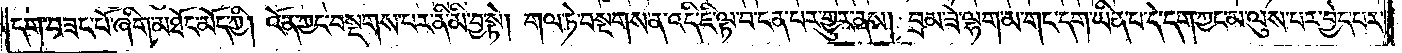དག་བཟང་པོ་ཞིག་མཐོང་མོད་ཀྱི། འོན་ཀྱང་བསྔགས་པར་ནི་མི་བྱ་སྟེ། གལ་ཏེ་བསྔགས་ན་འདི་ཇི་ལྟ་བ་ངན་པར་གྱུར་ནས། བྲམ་ཟེ་ལྷག་མ་གང་དག་ཡིན་པ་དེ་དག་ཀྱང་མ་ལུས་པར་བྱེད་པར་
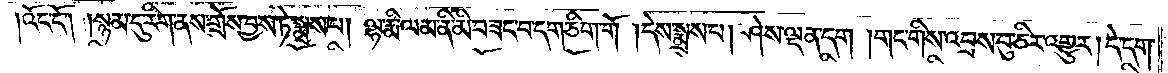།འོང་ངོ༌། །སྙམ་དུ་རིག་ནས་གྲོས་བྱས་ཏེ་སྨྲས་པ། ལྷ་རྨི་ལམ་ནི་མི་བཟང་བདག་ཅིག་གོ །དེས་སྨྲས་པ། ཤེས་ལྡན་དག །གང་གིས་འབྲས་བུ་ཅིར་འགྱུར་།དེ་དག་
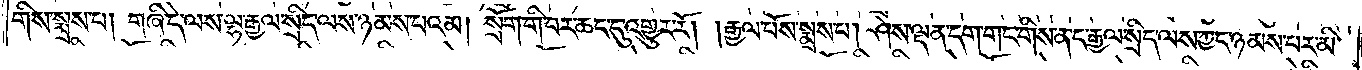གིས་སྨྲས་པ། གཞི་དེ་ལས་ལྷ་རྒྱལ་སྲིད་ལས་ཉམས་པའམ། སྲོག་གི་བར་ཆད་དུ་འགྱུར་རོ། །རྒྱལ་པོས་སྨྲས་པ། ཤེས་ལྡན་དག་གང་གིས་ན་ང་རྒྱལ་སྲིད་ལས་ཀྱང་ཉམས་པར་མི་
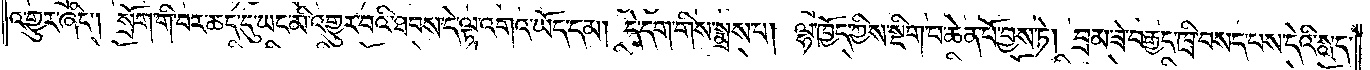འགྱུར་ཞིང༌། སྲོག་གི་བར་ཆད་དུ་ཡང་མི་འགྱུར་བའི་ཐབས་དེ་ལྟ་འགའ་ཡོད་དམ། དེ་དག་གིས་སྨྲས་པ། ལྷ་ཁྱོད་ཀྱིས་སྡིག་པ་ཆེན་པོ་བྱས་ཏེ། བྲམ་ཟེ་བརྒྱད་ཁྲི་བསད་པས་དེའི་སླད་
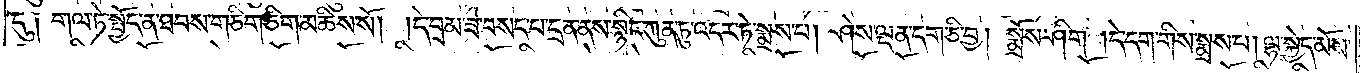དུ༑ གལ་ཏེ་སྤྱོད་ན་ཐབས་གཅིག་ཅིག་མཆིས་སོ། །དེ་བྲམ་ཟེ་བསད་པ་དྲན་ནས་སྙིང་ཀུན་ཏུ་འདར་ཏེ་སྨྲས་པ། ཤེས་ལྡན་དག་ཅི་བྱ། སྨྲོས་ཤིག །དེ་དག་གིས་སྨྲས་པ། ལྷ་སྐྱེད་མོས་
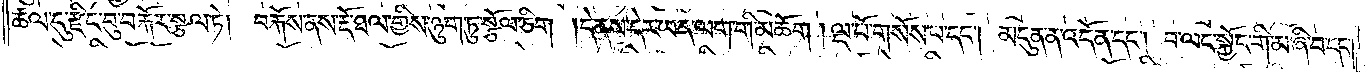ཚལ་དུ་རྫིང་བུ་བརྐོར་སྩལ་ཏེ། བརྐོས་ནས་རྡོ་ཐལ་གྱིས་ཉུག་ཏུ་སྩོལ་ཅིག །དེ་ནས་དེར་ཡན་ལག་གི་མཆོག །ལྔ་པོ་གསོས་པ་དང༌། མདུན་ན་འདོན་དང༌། བ་ལང་སྐྱོང་གི་མ་ཞི་བ་དང༌།
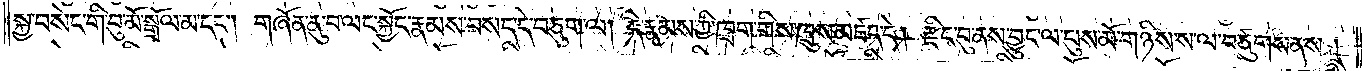སྐྱ་བསེང་གི་བུ་མོ་སྒྲོལ་མ་དང༌། གཞོན་ནུ་བ་ལང་སྐྱོང་རྣམས་བསད་དེ་བཅུག་ལ། དེ་རྣམས་ཀྱི་ཁྲག་གིས་ཁྲུས་མཛད་དེ། རྫིང་བུ་ནས་བྱུང་ལ་པུས་མོ་གཉིས་ས་ལ་བཙུགས་ནས།
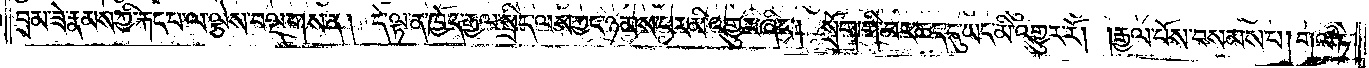བྲམ་ཟེ་རྣམས་ཀྱི་རྐང་པ་ལ་ལྕེས་བལྡགས་ན། དེ་ལྟ་ན་ཁྱོད་རྒྱལ་སྲིད་ལས་ཀྱང་ཉམས་པར་མི་འགྱུར་ཞིང༌། སྲོག་གི་བར་ཆད་དུ་ཡང་མི་འགྱུར་རོ། །རྒྱལ་པོས་བསམས་པ། གལ་ཏེ་
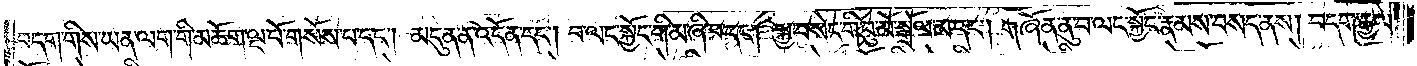བདག་གིས་ཡན་ལག་གི་མཆོག་ལྔ་པོ་གསོས་པ་དང༌། མདུན་ན་འདོན་དང༌། བ་ལང་སྐྱོང་གི་མ་ཞི་བ་དང༌། སྐྱ་བསེང་གི་བུ་མོ་སྒྲོལ་མ་དང༌། གཞོན་ནུ་བ་ལང་སྐྱོང་རྣམས་བསད་ནས། བདག་རྒྱལ་
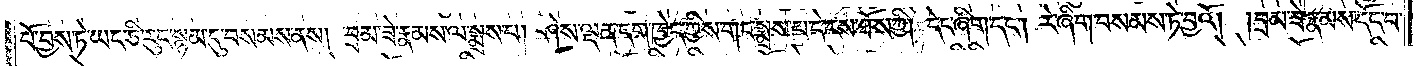པོ་བྱས་ཏེ་ཡང་ཅི་རུང་སྙམ་དུ་བསམས་ནས། བྲམ་ཟེ་རྣམས་ལ་སྨྲས་པ། ཤེས་ལྡན་དག་ཁྱེད་ཀྱིས་གང་སྨྲས་པ་དེ་ངས་ཐོས་ཀྱི། དེང་ཞིག་དང༌། རེ་ཞིག་བསམས་ཏེ་བྱའོ། །བྲམ་ཟེ་རྣམས་དོང་བ་
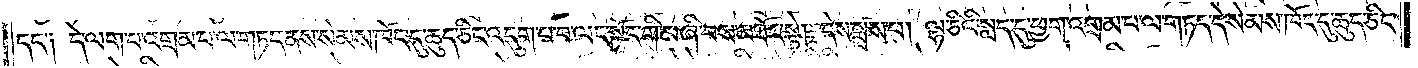དང་༑ དེ་ལག་པ་འགྲམ་པ་ལ་གཏད་ནས་སེམས་ཁོང་དུ་ཆུད་ཅིང་འདུག་པ་བ་ལང་སྐྱོང་གི་མ་ཞི་བས་མཐོང་སྟེ། དེས་སྨྲས་པ། ལྷ་ཅིའི་སླད་དུ་ཕྱག་འགྲམ་པ་ལ་གཏད་དེ་སེམས་ཁོང་དུ་ཆུད་ཅིང་
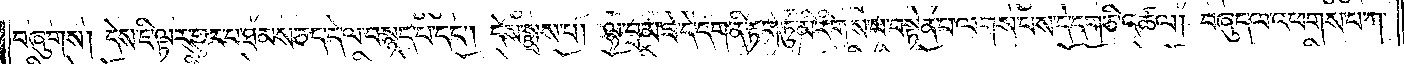བཞུགས། དེས་ཇི་ལྟར་གྱུར་པ་ཐམས་ཅད་དེ་ལ་བསྙད་པ་དང༌། དེས་སྨྲས་པ། ལྷ་བྲམ་ཟེ་དེ་དག་ནི་རྟག་ཏུ་མི་རིགས་པ་བསྟེན་པ་ལགས་པས་དེ་དག་ཅི་འཚལ། བཞུད་ལ་འཕགས་པ་ཀ་
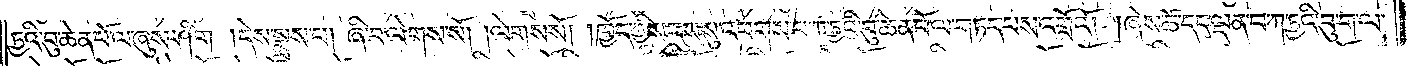ཏྱའི་བུ་ཆེན་པོ་ལ་ཞུས་ཤིག །དེས་སྨྲས་པ། ཞི་བ་ལེགས་སོ། །ལེགས་སོ། །ཁྱོད་ཀྱིས་དུས་སུ་འཕགས་པ་ཀ་ཏྱའི་བུ་ཆེན་པོ་ལ་གཏད་པས་འགྲོའོ། །ཞེས་ཚེ་དང་ལྡན་པ་ཀ་ཏྱའི་བུ་ག་ལ་
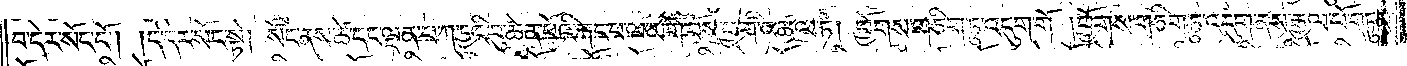བ་དེར་སོང་ངོ༌། །ད་དེར་སོང་སྟེ། སོང་ནས་ཚེ་དང་ལྡན་པ་ཀ་ཏྱའི་བུ་ཆེན་པོའི་རྐང་པ་ལ་མགོ་བོས་ཕྱག་འཚལ་ཏེ། ཕྱོགས་གཅིག་ཏུ་འདུག་གོ །ཕྱོགས་གཅིག་ཏུ་འདུག་ནས་རྒྱལ་པོ་གཏུམ་
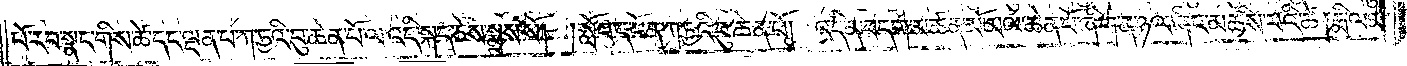ཕོ་རབ་སྣང་གིས་ཚེ་དང་ལྡན་པ་ཀ་ཏྱའི་བུ་ཆེན་པོ་ལ་འདི་སྐད་ཅེས་སྨྲས་སོ། །སློབ་དཔོན་ཀ་ཏྱའི་བུ་ཆེན་པོ། འདི་ན་བདག་མཚན་མོ་མལ་ཆེན་པོ་ཞིག་ན་ཉལ་ཞིང་མཆིས་པའི་ཚེ་།རྨི་ལམ་
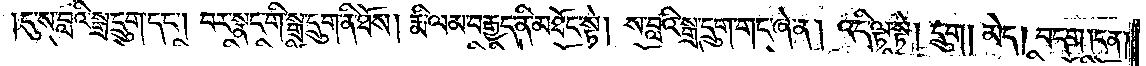དུ་ས་བླའི་སྒྲ་དྲུག་དང༌། བར་སྣང་གི་སྒྲ་དྲུག་ནི་ཐོས། རྨི་ལམ་བརྒྱད་ནི་མཐོང་སྟེ། ས་བླའི་སྒྲ་དྲུག་གང་ཞེ་ན། འདི་ལྟ་སྟེ། དྲུག། མེད། བདག །ངན།
